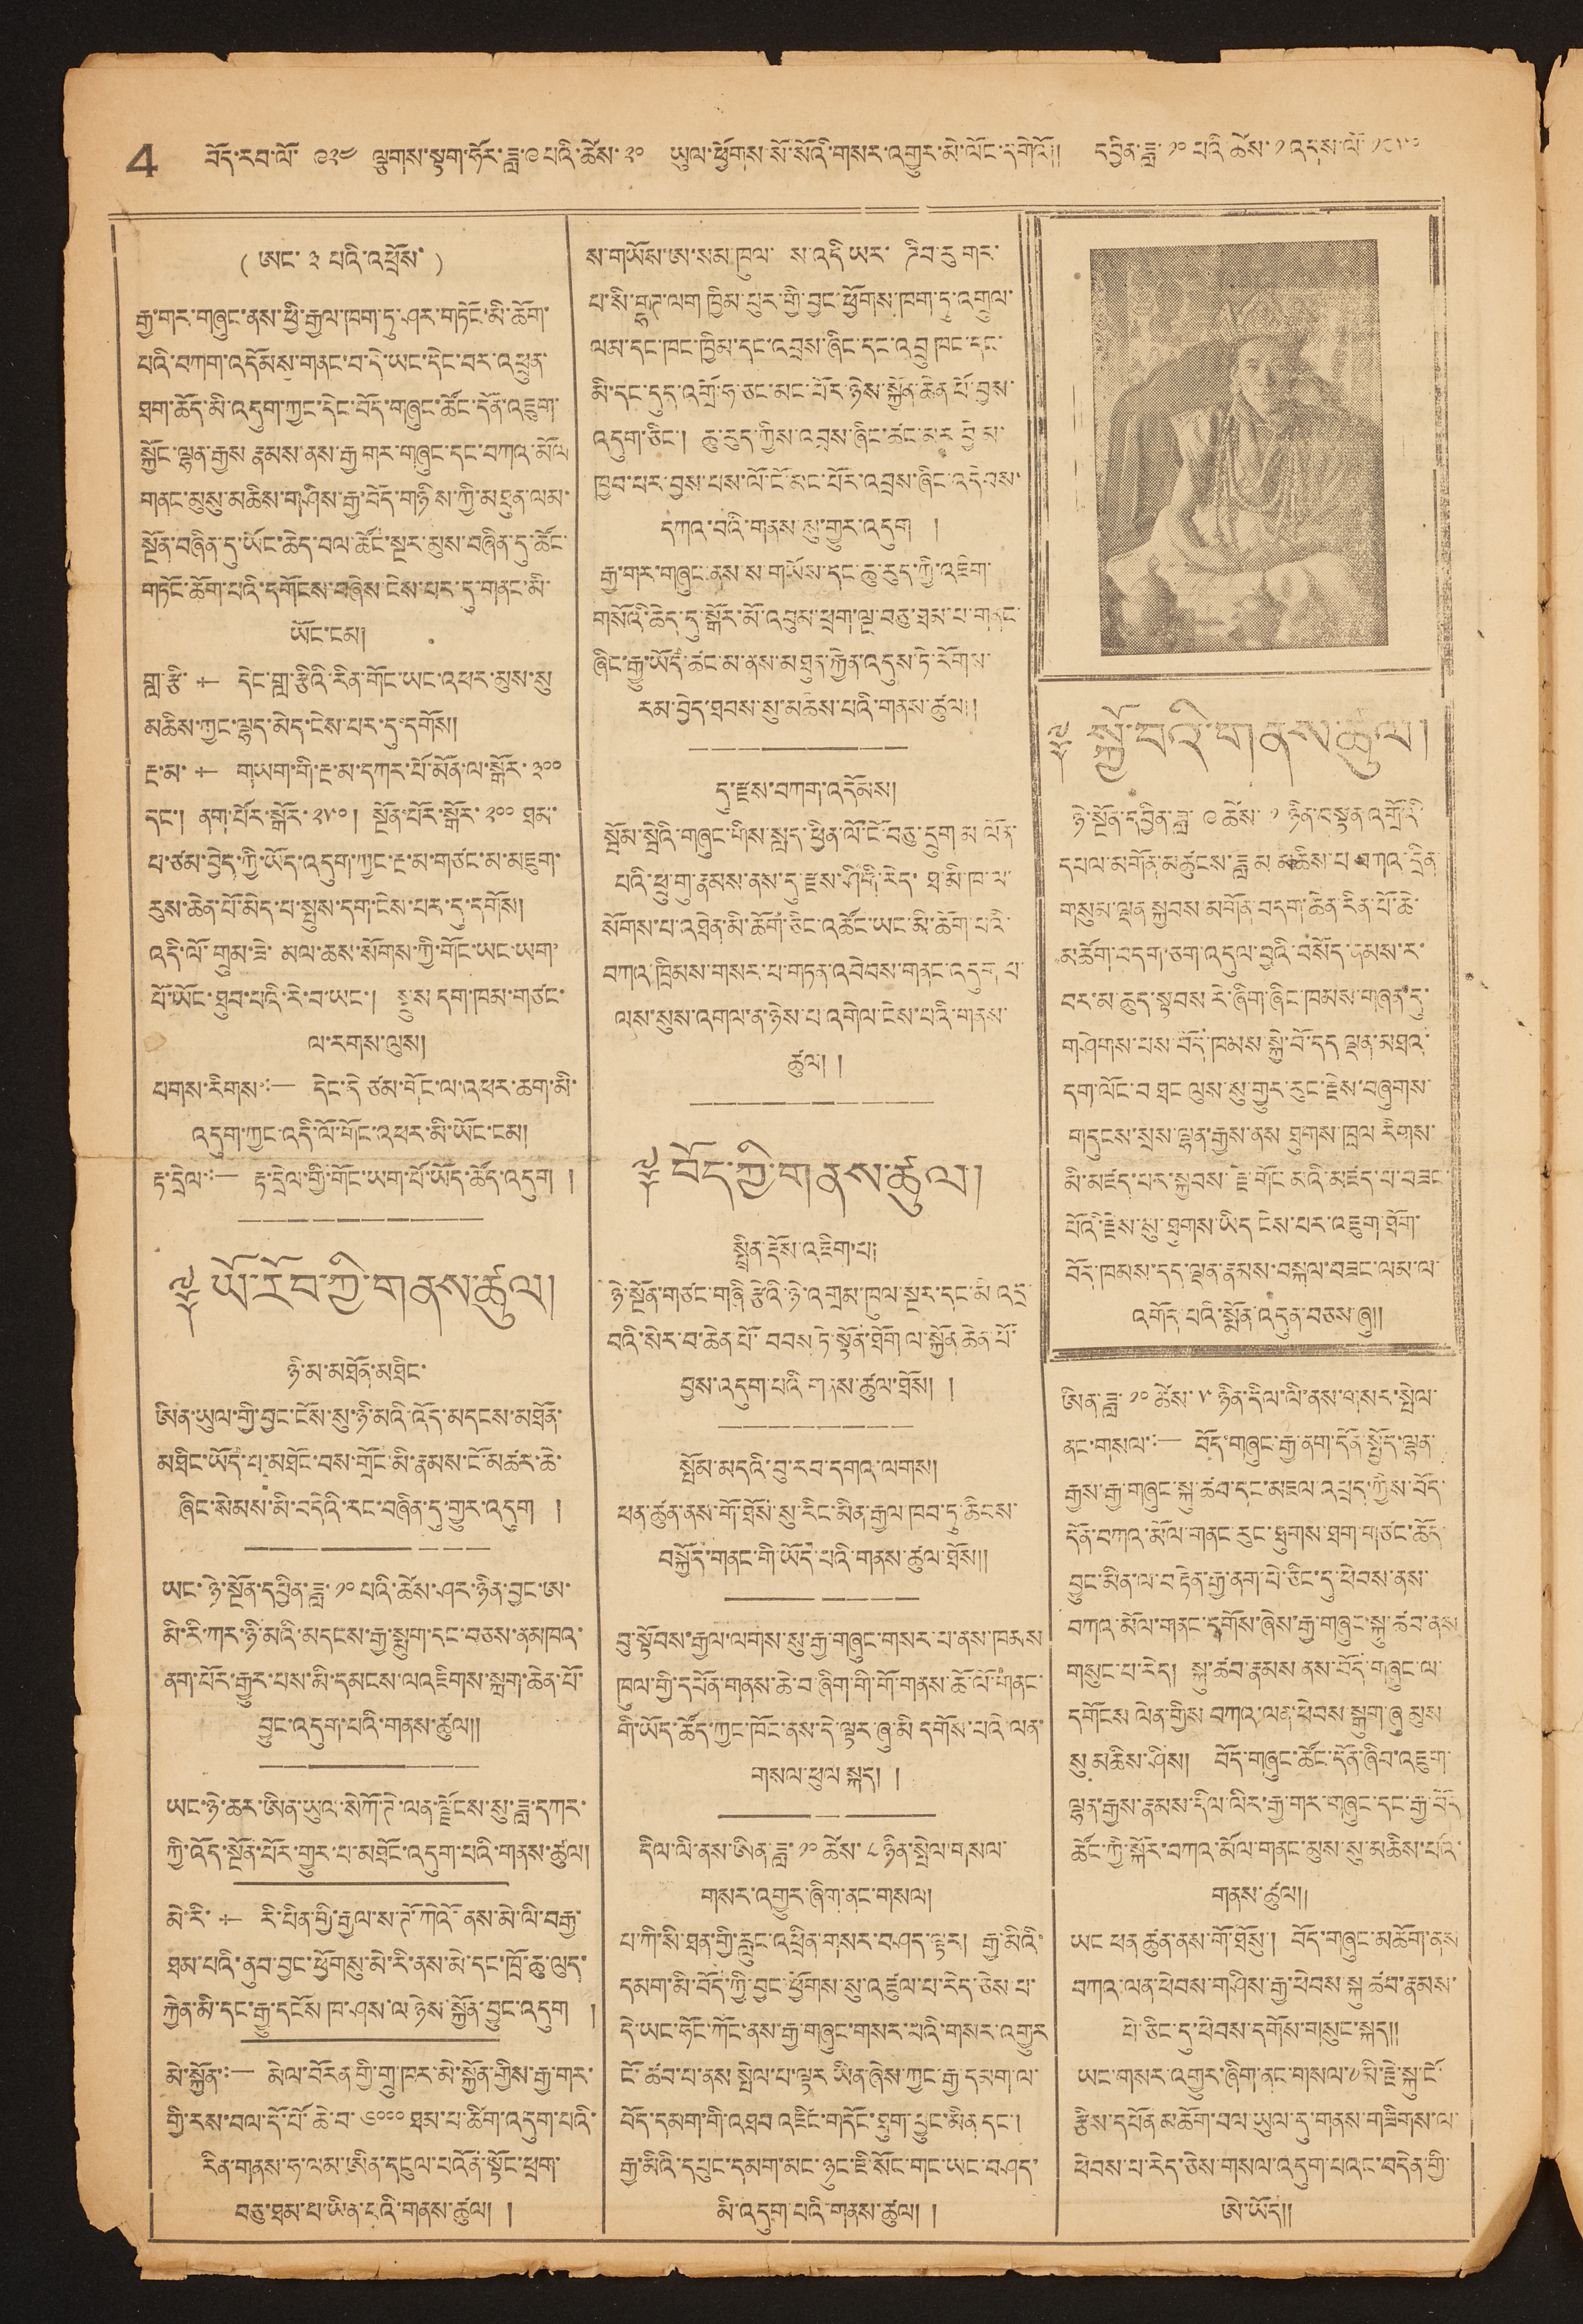4 བོད་རབ་ལོ་ ༩༢༤ ལྕགས་སྟག་ཧོར་ཟླ་ ༩ པའི་ཚེས་ ༢༠ ཡུལ་ཕྱོགས་སོ་སོའི་གསར་འགྱུར་མེ་ལོང་དགེའོ།། དབྱིན་ཟླ་ ༡༠ ཚེས་ ༡ འདས་ལོ་ ༡༩༥༠
( ཨང་ ༣ པའི་འཕྲོས་ )
རྒྱ་གར་གཞུང་ནས་ཕྱི་རྒྱལ་ཁག་ཏུ་ཤར་གཏོང་མི་ཆོག་
པའི་བཀག་འདོམས་གནང་བ་དེ་ཡང་དེང་བར་འཕྲུན་
ཐག་ཆོད་མི་འདུག་ཀྱང་དེང་བོད་གཞུང་ཚོང་དོན་འཇུག་
སྐྱོང་ལྷན་རྒྱས རྣམས་ནས་རྒྱ གར་གཞུང་དང་བཀའ་མོལ
གནང་མུསུ་མཆིས་གཤིས་རྒྱ་བོད་གཉིས་ཀྱི་མཐུན་ལམ་
སྔོན་བཞིན་དུ་ཡོང་ཆེད་བལ་ཚོང་སྔར་མུས་བཞིན་དུ་ཚོང་
གཏོང་ཆོག་པའི་དགོངས་བཞེས་ངེས་པར་དུ་གནང་མི་
ཡོང་ངམ།
གླ་རྩི་ † དེང་གླ་རྩིཨའི་རིན་གོང་ཡང་འཕར་མུས་སུ་
མཆིས་ཀྱང་ལྷད་མེད་ངེས་པར་དུ་དགོས།
རྔ་མ་ † གཡག་གི་རྔ་མ་དཀར་པོ་མོན་ལ་སྒོས་ ༣༠༠
དང་། ནག་པོར་སྒོར་ ༢༥༠། སྔོན་པོར་སྒོར་ ༢༠༠ ཐམ་
པ་ཙམ་བྱེད་ཀྱི་ཡོད་འདུག་ཀྱང་རྔ་མ་གཙང་མ་འཇུག་
རུས་ཆེན་པོ་མེད་པ་སྤུས་དག་ངེས་པར་དུ་དགོས།
འདི་ལོ་གྲུམ་ཟེ་མལ་ཆས་སོགས་ཀྱི་གོང་ཡང་ཡག་
པོ་ཡོང་ཐུབ་པའི་རེ་བ་ཡང་། སྤུས དག་ཁམ་གཙང་
ལ་རགས་ལུས།
པགས་རིགས་:— དེང་དེ ཙམ་གོང་ལ་འཕར་ཆག་མི་
འདུག་ཀྱང་འདི་ལོ་གོང་འཕར་མི་ཡོང་ངམ།
རྟ་དྲེལ་:— རྟ་དྲེལ་གྱི་གོང་ཡག་པོ་ཡོད་ཆོད་འདུག །
༈ ཡོ་རོབ་ཀྱི་གནས་ཚུལ།
ཉི་མ་མཐོན་མཐིང་
ཨིན་ཡུལ་གྱི་བྱང་ངོས་སུ་ཉི་མའི་འོད་མདངས་མཐོན་
མཐིང་ཡོད་པ་མཐོང་བས་གྲོང་མི་རྣམས་ངོ་མཚར་ཆེ་
ཞིང་སེམས་མི་བདེའི་རང་བཞིན་དུ་གྱུར་འདུག །
ཡང་ཉེ་སྔོན་དབྱིན་ཟླ་ ༡༠ པའི་ཚེས་ཤར་ཉིན་བྱང་ཨ་
མི་རི་ཀར་ཉི་མའི་མདངས་རྒྱ་སྨུག་དང་བཅས་ནམཁའ་
ནག་པོར་རྒྱུར་པས་མི་མདངས་ལའཇིགས་སྐྲག་ཆེན་པོ་
བྱུང་འདུག་པའི་གནས་ཚུལ།།
ཡང་ཉེ་ཆར་ཨིན་ཡུལ་སེཀོ་ཊེ་ལན་ལྗོངས་སུ་ཟླ་དཀར་
ཀྱི་འོད་སྔོན་པོར་གྱུར་པ་མཐོང་འདུག་པའི་གནས་ཆུལ།
མེ་རི་ † རི་པིན་གྱི་རྒྱལ་ས་ཊོ་ཀེའོ་ན་མེ་ལི་བརྒྱ་
ཐམ་པའི་ནུབ་བྱང་ཕྱོགསུ་མེ་རི་ནས་མེ་དང་ཁྲོ་ཆུ་ལུད་
རྐྱེན་མི་དང་རྒྱུ་དངོས་ཁ་ཤས་ལ་ཉེས་སྐྱིན་བྱུང་འདུག །
མེ་སྐྱོན་:— མེལ་བོརན གྱི་གྲུ་ཁར་མེ་སྐྱོན་གྱིས་རྒྱ་གར་
གྱི་རས་བལ་དོ་པོ་ཆེ་བ་ ༦༠༠༠ ཐམ་པ་ཚིག་འདུག་པའི་
རིན་གནས་ཧ་ལམ་ཨིན་དངུལ་པའོན་སྟོང་ཕྲག་
བཅུ་ཐམ་པ་ཡིན་པའི་གནས་ཚུལ། །
ས་གཡོས་ཨ་སམ་ཁུལ་ ས་འདི་ཡར་ ཌིབ་རུ གར་
པ་སི་གྷཊ་ལག ཁྱིམ་པུར་གྱི་བྱང་ཕྱོགས་ཁག་ཏུ་འགྲུལ་
ལམ་དང་ཁང་ཁྱིམ་དང་འབྲས་ཞིང་དང་འབྲུ ཁང་དང་
མི་དང་དུད་འགྲོ་ཧ་ཅང་མང་པོར་ཉེས་སྐྱོན་ཆེན པོ་བྱས་
འདུག་ཅིང་། ཆུ་རུད་ཀྱིས་འབྲས་ཞིང་ཚང་མར བྱེ མ་
ཁྱབ་པར་བྱས་པས་ལོ་ངོ་མང་པོར་འབྲས་ཞིང་འདེབས་
དཀའ་བའི་གནས་སུ་གྱུར་འདུག །
རྒྱ་གར་གཞུང་ནས་ས་གཡོས་དང་ཆུ་རུད་ཀཡི་འཇིག་
གསོའི་ཆེད་དུ་སྒོར་མོ་འབུམ་ཕྲག་ལྔ་བཅུ་ཐམ་པ་གནང་
ཞིང་རྒྱུ་ཡོད་ཚང་མ་ནས་མཐུན་རྐྱེན་འདུས་ཏེ་རོགས་
རམ་བྱེད་ཐབས་སུ་མཆིས་པའི་གནས་ཚུལ།།
དུ་རྫས་བཀག་འདོམས།
སྦོམ་སྤེའི་གཞུང་གིས་སླད་ཕྱིན་ལོ་ངོ་བཅུ་དྲུག་མ་ལོན་
པའི་ཕྲུ་གུ་རྣམས་ནས་དུ་རྫས་ཤིགི་རེད་ཐ་མི་ཁ་ལ་
སོགས་པ་འཐེན་མི་ཆོག་ཅིང་འཚོང་ཡང་མི་ཆོག་པའི་
བཀའ་ཁྲིམས་གསར་པ་གཏན་འབེབས་གནང་འདུག པ
ལས་སུས་འགལ་ན་ཉེས་པ་འགེལ་ངེས་པའི་གནས་
ཚུལ། །
༈ བོད་ཀྱི་གནས་ཚུལ།
སྤྲིན་རྡོས་འཇིག་པ།
ཉེ་སྔོན་གཙང་གཞི རྩེའི་ཉེ་འགྲམ་ཁུལ་སྔར་དང་མི་འདྲ་
བའི་སེར་བ་ཆེན་པོ་བབས ཏེ་སྟོན་ཐོག་ལ་སྐྱོན ཆེན་པོ་
བྱས་འདུག་པའི གནས་ཚུལཐོས། །
སྤོམ་མདའི་བུ་རབ་དགའ་ལགས།
ཕན་ཚུན་ནས་གོ་ཐོས་སུ་རིང་མིན་རྒྱལ་ཁབ་ཏུ་ཆིངས་
བསྐྱོད་གནང་གི་ཡོད་པའི་གནས་ཚུལ་ཐོས།།
བུ་སྟོབས་རྒྱལ་ལགས་སུ་རྒྱ་གཞུང་གསར་པ་ནས་ཁམས
ཁུལ་གྱི་དཔོན་གནས་ཆེ་བ་ཞིག་གི་གོ་གནས་ཆོ་ལོ་གནང་
གི་ཡོད་ཚོད་ཀྱང་ཁོང་ནས་དེ་ལྟར་ཞུ་མི་དགོས་པའི་ལན་
གསལ་ཕུལ སྐད། །
དིལ་ལི་ནས་ཨིན་ཟླ་ ༡༠ ཚེས་ ༨ ཉིན་སྤེལ་གསལ་
གསར་གྱུར་ཞིག་ནང་གསལ།
པ་ཀི་སི་ཐན་གྱི་རླུང་འཕྲིན་གསར་བཤད་ལྟར། རྒྱ་མིའི་
དམག་མི་བོད་ཀྱི་བྱང་ཕྱོགས་སུ་འཛུལ་པ་རེད་ཅེས་པ་
དེ་ཡང་ཧོང་ཀོང་ནས་རྒྱ་གཞུང་གསར་པའི་གསར་འགྱུར
ངོ་ཚབ་པ་ནས་སྤེལ་པ་ལྟར་ཡིན་ཞེས་ཀྱང་རྒྱ་དམག་ལ་
བོད་དམག་གི་འཐབ་འཛིང་གདོང་ཐུག་བྱུང་མིན དང་།
རྒྱ་མིའི་དཔུང་དམག་མང་ཉུང་ཇི་སོང་གང་ཡང་བཤད་
མི་འདུག་པའི་གནས་ཚུལ། །
༈ སྐྱི་བའི་གནས་ཚུལ།
ཉེ་སྔོན་དབྱིན་ཟླ་ ༩ ཚེས་ ༡ ཉིན་བསྟན འགྲོའི་
དཔལ་མགོན་མཚུངས་ཟླ མ་མཆིས་པ བཀའ་དྲིན་
གསུམ་ལྡན་སྐྱབས་མགོན་བདག་ཆེན་རིན་པོ་ཆེ་
མཆོག་བདག་ཅག་འདུལ་བྱའི་བསོད་ནམས་ར་
བར་མ་ཆུད་སྟབས་རེ་ཞིག་ཞིང་ཁམས་གཞན་དུ་
གཤེགས་པས་བོད་ཁམས་སྐྱེ་བོ་དད ལྡན་མཐའ་
དག་ལོང་མཐང ལུས་སུ་གྱུར་རུང་རྗེས་བཞུགས་
གདུངས་སྲས་ལྷན་རྒྱས་ནས ཐུགས་ཁྲལ རིགས་
མི་མཛད་པར་སྐྱབས་རྗེ་གོང་མའི་མཛད་པ་བཟང་
པོའི་རྗེས་སུ་ཐུགས་ཡིན་ངེས་པར་འཇུག་ཐོག་
བོད་ཁམས་དད་ལྡན་རྣམས་བསྐལ་བཟང་ལམ་ལ་
འགོད་པའི་སྨོན་འདུན་བཅས་ཞུ།།
ཨིན་ཟླ་ ༡༠ ཚེས་ ༥ ཉིན་དིལ་ལི་ནས་གསར་སྤེལ་
ནང་གསལ་:— བོད་གཞུང་རྒྱ་ནང་དོན་སྤྱོད་ལྷན་
རྒྱས་རྒྱ་གཞུང་སྐུ་ཚབ་དང་མཇལ་འཕྲད་ཀྱིས་བོད་
དོན་བཀའ་མོལ་གནང་རུང་ཐུགས་ཐག་གཙང་ཆོད་
བྱུང་མིན་ལ་བརྟེན་རྒྱ་ནག་པེ་ཅིང་དུ་ཕེབས་ནས་
བཀའ་མོལ་གནང་དགོས་ཞེས་རྒྱ་གཞུང་སྐུ་ཚབ་ནས་
གསུང་པ་རེད། སྐུ་ཚབ་རྣམས ནས་བོད་གཞུང་ལ་
དགོངས ལེན་གྱིས བཀའ་ལན་ཕེབས་སྒུག་ཞུ མུས
སུ མཆིས་ཤིས། བོད་གཞུང་ཚོང་དོན་ཞིབ་འཇུག་
ལྷན་རྒྱས་རྣམས་དིལ་ལིར་རྒྱ་གར་གཞུང་དང་རྒྱ་བོད
ཚོང་གྱི་སྐོར་བཀའ་མོལ་གནང་མུས་སུ་མཆིས་པའི་
གནས་ཚུལ།།
ཡང ཕན ཚུན་ནས་གོ་ཐོསུ་། བོད་གཞུང་མཆོག་ནས
བཀའ་ལན་ཕེབས་གཤིས་རྒྱ་ཕེབས་སྐུ ཚབ་རྣམས་
པེ་ཅིང་དུ་ཕེབས་དགོས་གསུང་སྐད།།
ཡང་གསར་འགྱུར་ཞིག་ནང་གསལ་༸མི་རྗེ་སྐུ་ངོ་
རྩིས་དཔོན མཆོག་བལ་ཡུལ་དུ་གནས་གཟིགས་ལ་
ཕེབས་པ་རེད་ཅེས་གསལ་འདུག་པའང་བདེན་གྱི་
ཨེ་ཡོད།།
